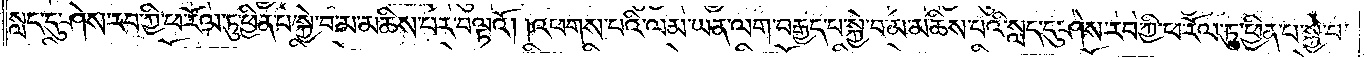སླད་དུ་ཤེས་རབ་ཀྱི་ཕ་རོལ་ཏུ་ཕྱིན་པ་སྐྱེ་བ་མ་མཆིས་པར་བལྟའོ། །འཕགས་པའི་ལམ་ཡན་ལག་བརྒྱད་པ་སྐྱེ་བ་མ་མཆིས་པའི་སླད་དུ་ཤེས་རབ་ཀྱི་ཕ་རོལ་ཏུ་ཕྱིན་པ་སྐྱེ་བ་
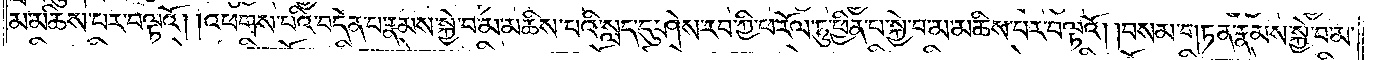མ་མཆིས་པར་བལྟའོ། །འཕགས་པའི་བདེན་པ་རྣམས་སྐྱེ་བ་མ་མཆིས་པའི་སླད་དུ་ཤེས་རབ་ཀྱི་ཕ་རོལ་ཏུ་ཕྱིན་པ་སྐྱེ་བ་མ་མཆིས་པར་བལྟའོ། །བསམ་གཏན་རྣམས་སྐྱེ་བ་མ་
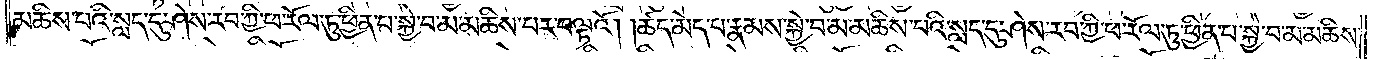མཆིས་པའི་སླད་དུ་ཤེས་རབ་ཀྱི་ཕ་རོལ་ཏུ་ཕྱིན་པ་སྐྱེ་བ་མ་མཆིས་པར་བལྟའོ། །ཚད་མེད་པ་རྣམས་སྐྱེ་བ་མ་མཆིས་པའི་སླད་དུ་ཤེས་རབ་ཀྱི་ཕ་རོལ་ཏུ་ཕྱིན་པ་སྐྱེ་བ་མ་མཆིས་
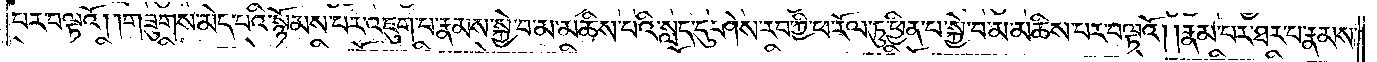པར་བལྟའོ། །གཟུགས་མེད་པའི་སྙོམས་པར་འཇུག་པ་རྣམས་སྐྱེ་བ་མ་མཆིས་པའི་སླད་དུ་ཤེས་རབ་ཀྱི་ཕ་རོལ་ཏུ་ཕྱིན་པ་སྐྱེ་བ་མ་མཆིས་པར་བལྟའོ། །རྣམ་པར་ཐར་པ་རྣམས་
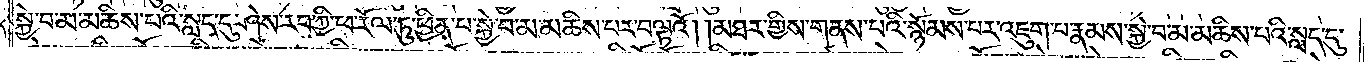སྐྱེ་བ་མ་མཆིས་པའི་སླད་དུ་ཤེས་རབ་ཀྱི་ཕ་རོལ་ཏུ་ཕྱིན་པ་སྐྱེ་བ་མ་མཆིས་པར་བལྟའོ། །མཐར་གྱིས་གནས་པའི་སྙོམས་པར་འཇུག་པ་རྣམས་སྐྱེ་བ་མ་མཆིས་པའི་སླད་དུ་
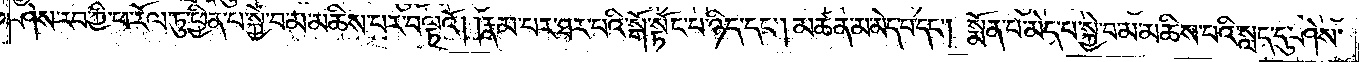ཤེས་རབ་ཀྱི་ཕ་རོལ་ཏུ་ཕྱིན་པ་སྐྱེ་བ་མ་མཆིས་པར་བལྟའོ། །རྣམ་པར་ཐར་པའི་སྒོ་སྟོང་པ་ཉིད་དང༌། མཚན་མ་མེད་པ་དང༌། སྨོན་པ་མེད་པ་སྐྱེ་བ་མ་མཆིས་པའི་སླད་དུ་ཤེས་
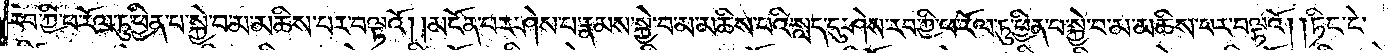རབ་ཀྱི་ཕ་རོལ་ཏུ་ཕྱིན་པ་སྐྱེ་བ་མ་མཆིས་པར་བལྟའོ། །མངོན་པར་ཤེས་པ་རྣམས་སྐྱེ་བ་མ་མཆིས་པའི་སླད་དུ་ཤེས་རབ་ཀྱི་ཕ་རོལ་ཏུ་ཕྱིན་པ་སྐྱེ་བ་མ་མཆིས་པར་བལྟའོ། །ཏིང་ངེ་
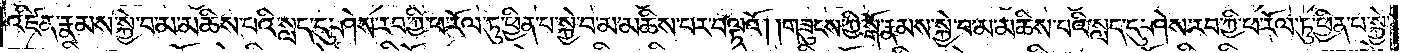འཛིན་རྣམས་སྐྱེ་བ་མ་མཆིས་པའི་སླད་དུ་ཤེས་རབ་ཀྱི་ཕ་རོལ་ཏུ་ཕྱིན་པ་སྐྱེ་བ་མ་མཆིས་པར་བལྟའོ། །གཟུངས་ཀྱི་སྒོ་རྣམས་སྐྱེ་བ་མ་མཆིས་པའི་སླད་དུ་ཤེས་རབ་ཀྱི་ཕ་རོལ་ཏུ་ཕྱིན་པ་སྐྱེ་
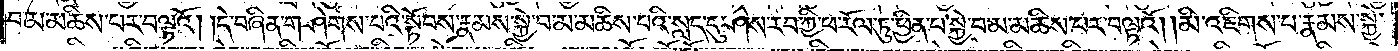བ་མ་མཆིས་པར་བལྟའོ། །དེ་བཞིན་གཤེགས་པའི་སྟོབས་རྣམས་སྐྱེ་བ་མ་མཆིས་པའི་སླད་དུ་ཤེས་རབ་ཀྱི་ཕ་རོལ་ཏུ་ཕྱིན་པ་སྐྱེ་བ་མ་མཆིས་པར་བལྟའོ། །མི་འཇིགས་པ་རྣམས་སྐྱེ་
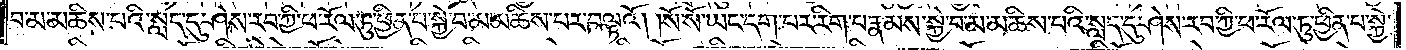བ་མ་མཆིས་པའི་སླད་དུ་ཤེས་རབ་ཀྱི་ཕ་རོལ་ཏུ་ཕྱིན་པ་སྐྱེ་བ་མ་མཆིས་པར་བལྟའོ། །སོ་སོ་ཡང་དག་པར་རིག་པ་རྣམས་སྐྱེ་བ་མ་མཆིས་པའི་སླད་དུ་ཤེས་རབ་ཀྱི་ཕ་རོལ་ཏུ་ཕྱིན་པ་སྐྱེ་
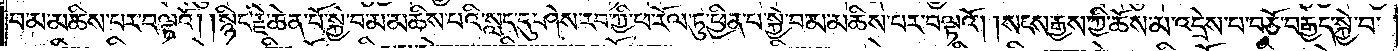བ་མ་མཆིས་པར་བལྟའོ། །སྙིང་རྗེ་ཆེན་པོ་སྐྱེ་བ་མ་མཆིས་པའི་སླད་དུ་ཤེས་རབ་ཀྱི་ཕ་རོལ་ཏུ་ཕྱིན་པ་སྐྱེ་བ་མ་མཆིས་པར་བལྟའོ། །སངས་རྒྱས་ཀྱི་ཆོས་མ་འདྲེས་པ་བཅོ་བརྒྱད་སྐྱེ་བ་
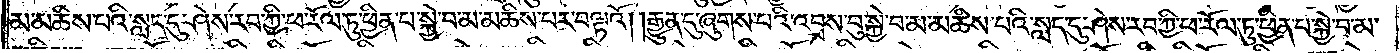མ་མཆིས་པའི་སླད་དུ་ཤེས་རབ་ཀྱི་ཕ་རོལ་ཏུ་ཕྱིན་པ་སྐྱེ་བ་མ་མཆིས་པར་བལྟའོ། །རྒྱུན་དུ་ཞུགས་པའི་འབྲས་བུ་སྐྱེ་བ་མ་མཆིས་པའི་སླད་དུ་ཤེས་རབ་ཀྱི་ཕ་རོལ་ཏུ་ཕྱིན་པ་སྐྱེ་བ་མ་
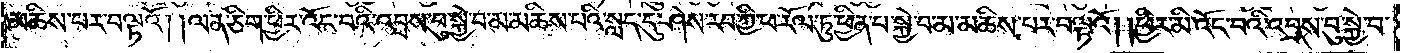མཆིས་པར་བལྟའོ། །ལན་གཅིག་ཕྱིར་འོང་བའི་འབྲས་བུ་སྐྱེ་བ་མ་མཆིས་པའི་སླད་དུ་ཤེས་རབ་ཀྱི་ཕ་རོལ་ཏུ་ཕྱིན་པ་སྐྱེ་བ་མ་མཆིས་པར་བལྟའོ། །ཕྱིར་མི་འོང་བའི་འབྲས་བུ་སྐྱེ་བ་
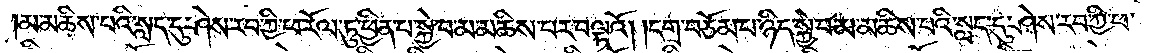མ་མཆིས་པའི་སླད་དུ་ཤེས་རབ་ཀྱི་ཕ་རོལ་ཏུ་ཕྱིན་པ་སྐྱེ་བ་མ་མཆིས་པར་བལྟའོ། །དགྲ་བཅོམ་པ་ཉིད་སྐྱེ་བ་མ་མཆིས་པའི་སླད་དུ་ཤེས་རབ་ཀྱི་ཕ་
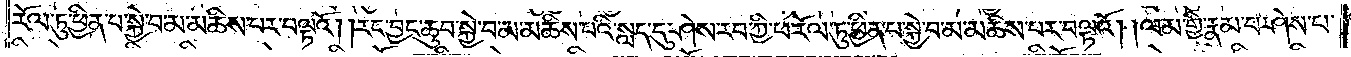རོལ་ཏུ་ཕྱིན་པ་སྐྱེ་བ་མ་མཆིས་པར་བལྟའོ། །རང་བྱང་ཆུབ་སྐྱེ་བ་མ་མཆིས་པའི་སླད་དུ་ཤེས་རབ་ཀྱི་ཕ་རོལ་ཏུ་ཕྱིན་པ་སྐྱེ་བ་མ་མཆིས་པར་བལྟའོ། །ལམ་གྱི་རྣམ་པ་ཤེས་པ་
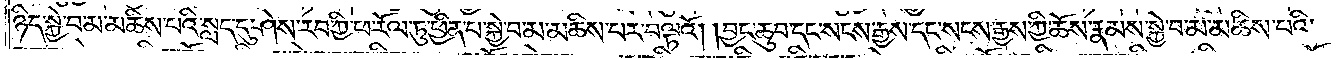ཉིད་སྐྱེ་བ་མ་མཆིས་པའི་སླད་དུ་ཤེས་རབ་ཀྱི་ཕ་རོལ་ཏུ་ཕྱིན་པ་སྐྱེ་བ་མ་མཆིས་པར་བལྟའོ། །བྱང་ཆུབ་དང་སངས་རྒྱས་དང་སངས་རྒྱས་ཀྱི་ཆོས་རྣམས་སྐྱེ་བ་མ་མཆིས་པའི་
